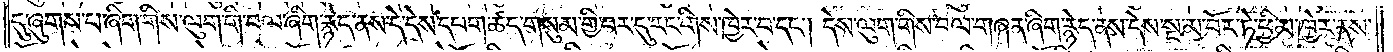དུ་ཞུགས་པ་ཞིག་གིས་ལུག་གི་བལ་ཞིག་རྙེད་ནས་དེ་དེས་དཔག་ཚད་གསུམ་གྱི་བར་དུ་རང་གིས་ཁྱེར་བ་དང༌། དེས་ལུག་གིས་བལ་གཞན་ཞིག་རྙེད་ནས་དེས་སྔ་མ་བོར་ཏེ་ཕྱི་མ་ཁྱེར་ནས་
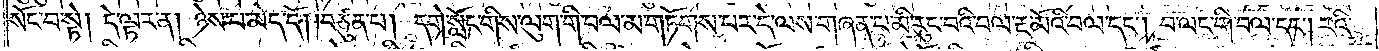སོང་བ་སྟེ། དེ་ལྟར་ན། ཉེས་པ་མེད་དོ། །བཙུན་པ། དགེ་སློང་གིས་ལུག་གི་བལ་མ་གཏོགས་པར་དེ་ལས་གཞན་པ་མི་རུང་བའི་བལ་རྔ་མོའི་བལ་དང༌། བ་ལང་གི་བལ་དང༌། རའི་
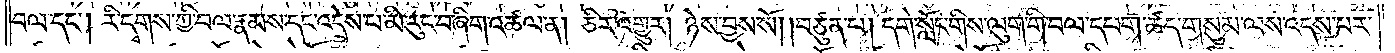བལ་དང༌། རི་དྭགས་ཀྱི་བལ་རྣམས་དང་འདྲེས་པ་མི་རུང་བ་ཞིག་འཚལ་ན། ཅིར་འགྱུར། ཉེས་བྱས་སོ། །བཙུན་པ། དགེ་སློང་གིས་ལུག་གི་བལ་དཔག་ཚད་གསུམ་ལས་འདས་པར་
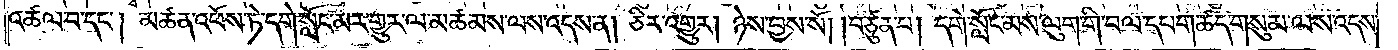འཚལ་བ་དང༌། མཚན་འཕོས་ཏེ་དགེ་སློང་མར་གྱུར་ལ་མཚམས་ལས་འདས་ན། ཅིར་འགྱུར། ཉེས་བྱས་སོ། །བཙུན་པ། དགེ་སློང་མས་ལུག་གི་བལ་དཔག་ཚད་གསུམ་ལས་འདས་
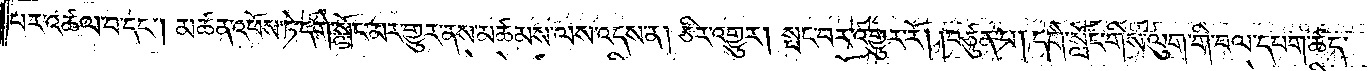པར་འཚལ་བ་དང༌། མཚན་འཕོས་ཏེ་དགེ་སློང་མར་གྱུར་ནས་མཚམས་ལས་འདས་ན། ཅིར་འགྱུར། སྤང་བར་འགྱུར་རོ། །བཙུན་པ། དགེ་སློང་གིས་ལུག་གི་བལ་དཔག་ཚད་
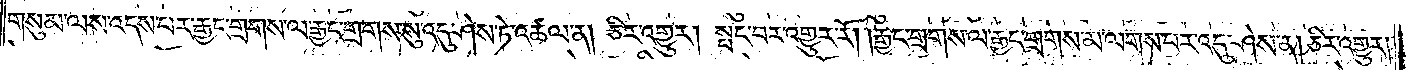གསུམ་ལས་འདས་པར་རྒྱང་གྲགས་ལ་རྒྱང་གྲགས་སུ་འདུ་ཤེས་ཏེ་འཚལ་ན། ཅིར་འགྱུར། སྤང་བར་འགྱུར་རོ། །རྒྱང་གྲགས་ལ་རྒྱང་གྲགས་མ་ལགས་པར་འདུ་ཤེས་ན། ཅིར་འགྱུར།
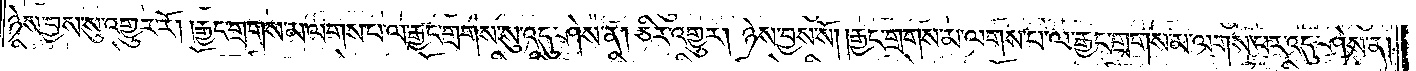ཉེས་བྱས་སུ་འགྱུར་རོ། །རྒྱང་གྲགས་མ་ལགས་པ་ལ་རྒྱང་གྲགས་སུ་འདུ་ཤེས་ན། ཅིར་འགྱུར། ཉེས་བྱས་སོ། །རྒྱང་གྲགས་མ་ལགས་པ་ལ་རྒྱང་གྲགས་མ་ལགས་པར་འདུ་ཤེས་ན།
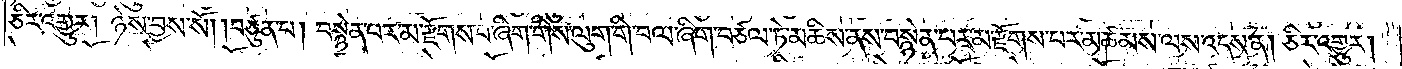ཅིར་འགྱུར། ཉེས་བྱས་སོ། །བཙུན་པ། བསྙེན་པར་མ་རྫོགས་པ་ཞིག་གིས་ལུག་གི་བལ་ཞིག་བཙལ་ཏེ་མཆིས་ནས་བསྙེན་པར་མ་རྫོགས་པར་མཚམས་ལས་འདས་ན། ཅིར་འགྱུར།
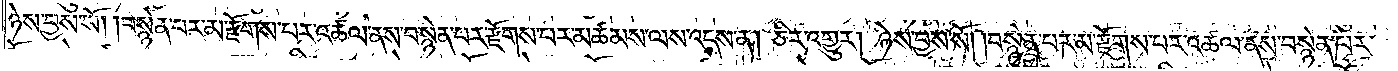ཉེས་བྱས་སོ། །བསྙེན་པར་མ་རྫོགས་པར་འཚལ་ནས་བསྙེན་པར་རྫོགས་པར་མཚམས་ལས་འདས་ན། ཅིར་འགྱུར། ཉེས་བྱས་སོ། །བསྙེན་པར་མ་རྫོགས་པར་འཚལ་ནས་བསྙེན་པར་
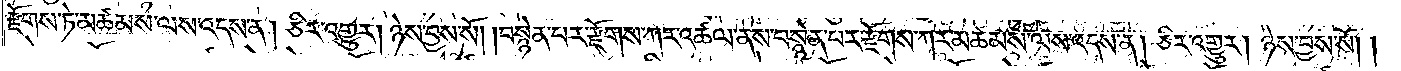རྫོགས་ཏེ་མཚམས་ལས་འདས་ན། ཅིར་འགྱུར། ཉེས་བྱས་སོ། །བསྙེན་པར་རྫོགས་ཀར་འཚལ་ནས་བསྙེན་པར་རྫོགས་ཀར་མཚམས་ལས་འདས་ན། ཅིར་འགྱུར། ཉེས་བྱས་སོ། །
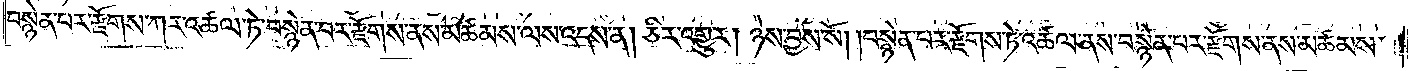བསྙེན་པར་རྫོགས་ཀར་འཚལ་ཏེ་བསྙེན་པར་རྫོགས་ནས་མཚམས་ལས་འདས་ན། ཅིར་འགྱུར། ཉེས་བྱས་སོ། །བསྙེན་པར་རྫོགས་ཏེ་འཚལ་ནས་བསྙེན་པར་རྫོགས་ནས་མཚམས་
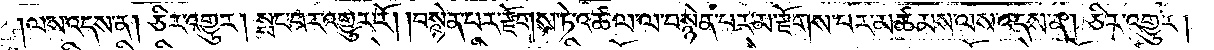།ལས་འདས་ན། ཅིར་འགྱུར། སྤང་བར་འགྱུར་རོ། །བསྙེན་པར་རྫོགས་ཏེ་འཚལ་ལ་བསྙེན་པར་མ་རྫོགས་པར་མཚམས་ལས་འདས་ན། ཅིར་འགྱུར།
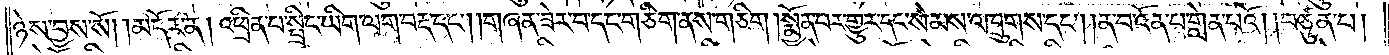ཉེས་བྱས་སོ། །མདོར་ན། འཕྲིན་པ་སྤྲིང་ཡིག་ལག་བརྡ་དང༌། །གཞན་ཟེར་བ་དང་གཅིག་ནས་གཅིག །སྨྱོན་པར་གྱུར་དང་སེམས་འཁྲུགས་དང༌། །ན་བ་འོན་པ་གླེན་པའོ། །བཙུན་པ།
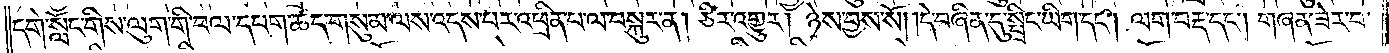དགེ་སློང་གིས་ལུག་གི་བལ་དཔག་ཚད་གསུམ་ལས་འདས་པར་འཕྲིན་པ་ལ་བསྐུར་ན། ཅིར་འགྱུར། ཉེས་བྱས་སོ། །དེ་བཞིན་དུ་སྤྲིང་ཡིག་དང༌། ལག་བརྡ་དང༌། གཞན་ཟེར་བ་
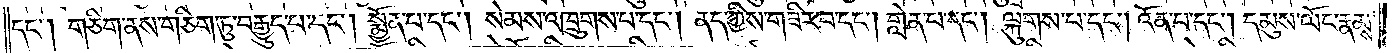དང༌། གཅིག་ནས་གཅིག་ཏུ་བརྒྱུད་པ་དང༌། སྨྱོན་པ་དང༌། སེམས་འཁྲུགས་པ་དང༌། ནད་ཀྱིས་གཟིར་བ་དང༌། གླེན་པ་དང༌། ལྐུགས་པ་དང༌། འོན་པ་དང༌། དམུས་ལོང་རྣམས་
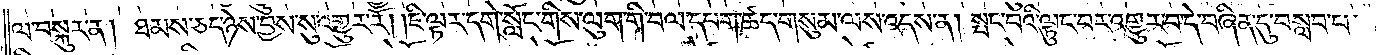ལ་བསྐུར་ན། ཐམས་ཅད་ཉེས་བྱས་སུ་འགྱུར་རོ། །ཇི་ལྟར་དགེ་སློང་གིས་ལུག་གི་བལ་དཔག་ཚད་གསུམ་ལས་འདས་ན། སྤང་བའི་ལྟུང་བར་འགྱུར་བ་དེ་བཞིན་དུ་བསླབ་པ་
